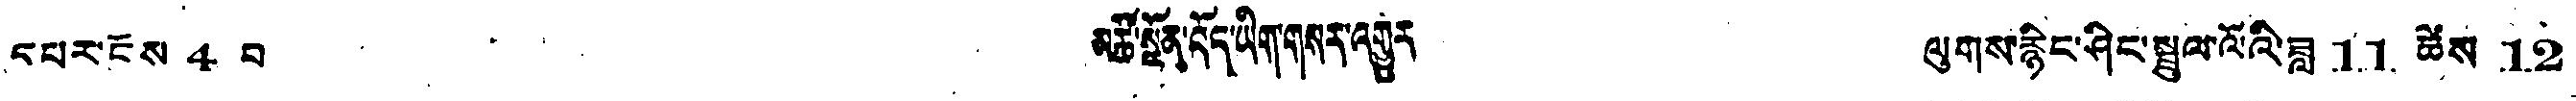དཔར་ངོས 4 པ མཚོ་སྔོན་བོད་ཡིག་གསར་འགྱུར ལུགས་རྙིང་ཤིང་སྦྲུལ་ལོའི་ཟླ 11 ཚེས 12
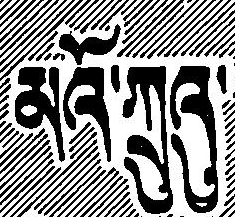མའོ་ཀྲུའུ་
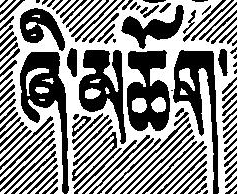ཞི་མཆོག་
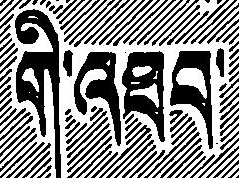གི་འཐབ་
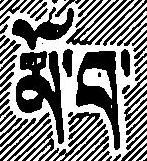མོ་བ་
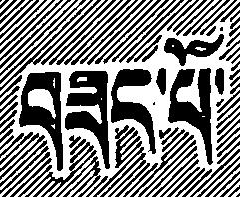བཟང་པོ་
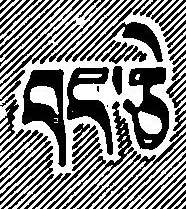བང་ཅེ
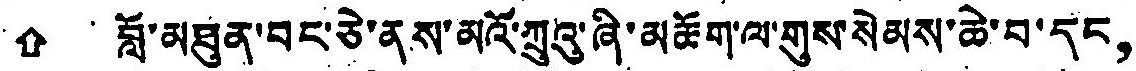⇧ བློ་མཐུན་བང་ཅེ་ནས་མའོ་ཀྲུའུ་ཞི་མཆོག་ལ་གུས་སེམས་ཆེ་བ་དང，
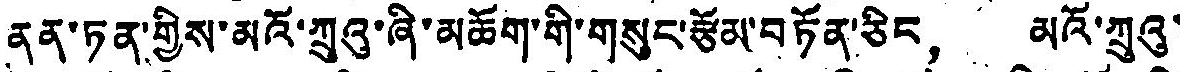ནན་ཏན་གྱིས་མའོ་ཀྲུའུ་ཞི་མཆོག་གི་གསུང་རྩོམ་བཏོན་ཅིང， མའོ་ཀྲུའུ་
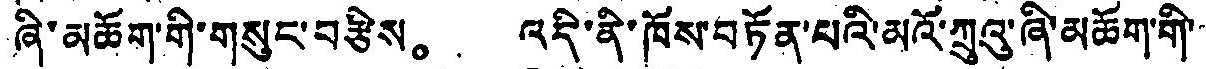ཞི་མཆོག་གི་གསུང་བརྩིས。 འདི་ནི་ཁོས་བཏོན་པའི་མའོ་ཀྲུའུ་ཞི་མཆོག་གི་
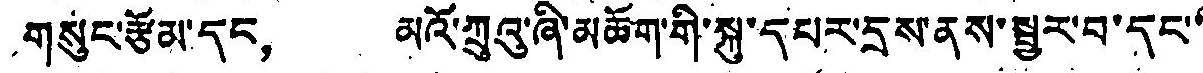གསུང་རྩོམ་དང， མའོ་ཀྲུའུ་ཞི་མཆོག་གི་སྐུ་དཔར་དྲུས་ནས་སྦྱར་བ་དང་
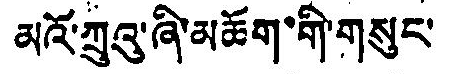མའོ་ཀྲུའུ་ཞི་མཆོག་གི་གསུང་
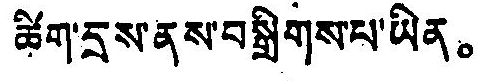ཚིག་དྲས་ནས་བསྒྲིགས་པ་ཡིན。
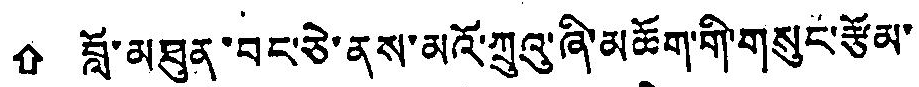⇧ བློ་མཐུན་བར་ཅེ་ནས་མའོ་ཀྲུའུ་ཞི་མཆོག་གི་གསུང་རྩོམ་
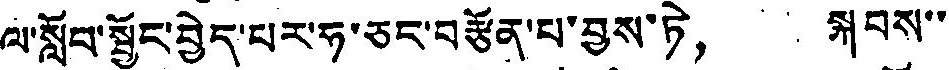ལ་སློབ་སྦྱོང་བྱེད་པར་ཧ་ཅང་བརྩོན་པ་བྱས་ཏེ， སྐབས་་
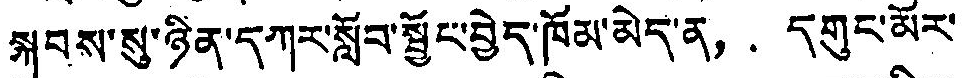སྐབས་སུ་ཉིན་དཀར་སློབ་སྦྱོང་བྱེད་ཁོམ་མེད་ན， དགུང་མོར་
